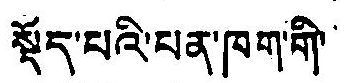སྡོད་པའི་པན་ཁག་གི་
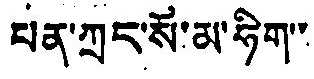པན་ཀྲང་སོ་མ་ཧིག་་
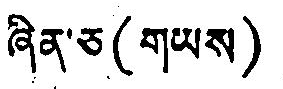ཞིན་ཅ (གཡས)
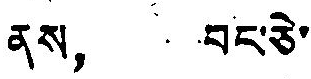ནས， བང་ཅེ་
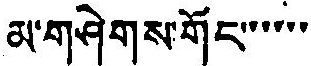མ་གཤེགས་གོང་་་་་་
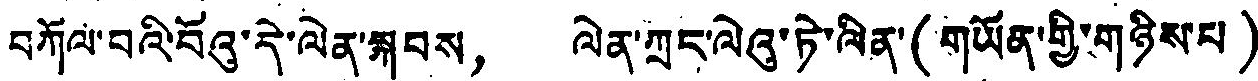བཀོལ་བའི་བོའུ་དེ་ལེན་སྐབས， ལེན་ཀྲང་ལེའུ་ཏེ་ལིན་(གཡོན་གྱི་གཉིས་པ)
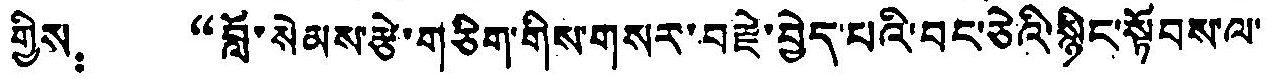གྱིས： “བློ་སེམས་རྩེ་གཅིག་གིས་གསར་བརྗེ་བྱེད་པའི་བང་ཅེའི་སྙིང་སྟོབས་ལ་
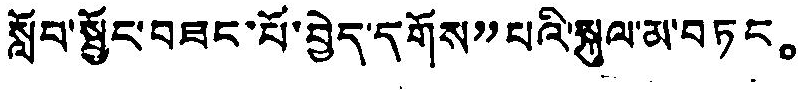སློབ་སྦྱོང་བཟང་པོ་བྱེད་དགོས”པའི་སྐུལ་མ་བཏང。
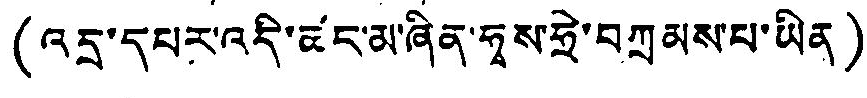(འདྲ་དཔར་འདི་ཚང་མ་ཞིན་ཧྭས་ཧྲེ་བཀྲམས་པ་ཡིན)
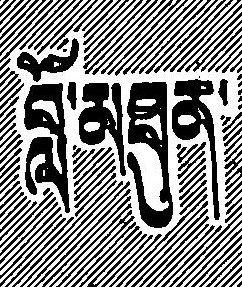བློ་མཐུན་
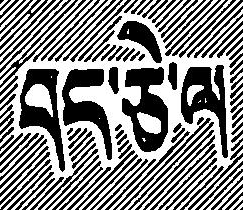བང་ཅེ་ལ
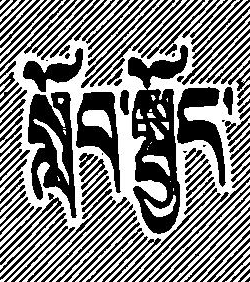སློབ་སྦྱོང་
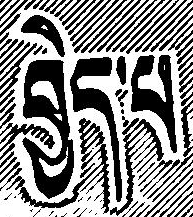བྱེད་པ
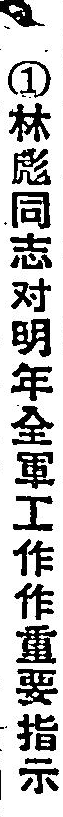①林彪同志对明年全軍工作作重要指示
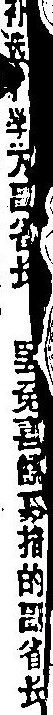补选  为副省長 罢免    的副省長
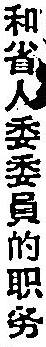和省人民委員的职务
